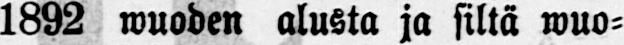1892 wuoden alusta ja siltä wuo-
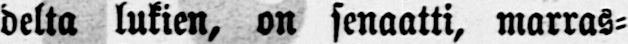delta lukien, on senaatti, marras-
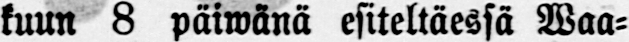kuun 8 päiwänä esiteltäessä Waa-
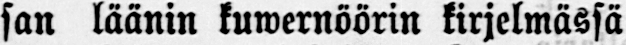san läänin kuwernöörin kirjelmässä
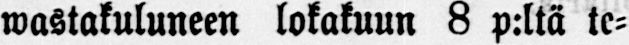wastakuluneen lokakuun 8 p:ltä te-
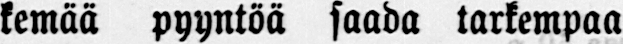kemää pyyntöä saada tarkempaa
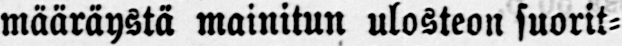määräystä mainitun ulosteon suorit-
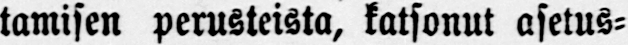tamisen perusteista, katsonut asetus-
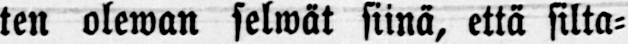ten olewan selwät siinä, että silta-
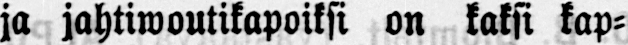ja jahtiwoutikapoiksi on kaksi kap-
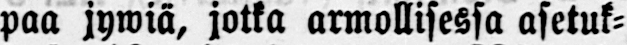paa jywiä, jotka armollisessa asetuk-
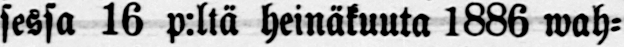sessa 16 p.ltä heinäkuuta 1886 wah-
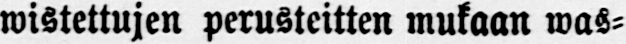wistettujen perusteitten mukaan was-
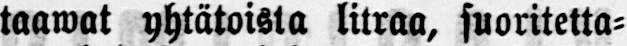taawat yhtätoista litraa, suoritetta-
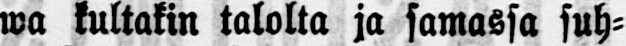wa kultakin talolta ja samassa suh-
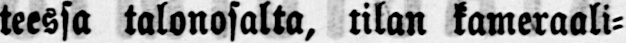teessa talonosalta, tilan kameraali-
